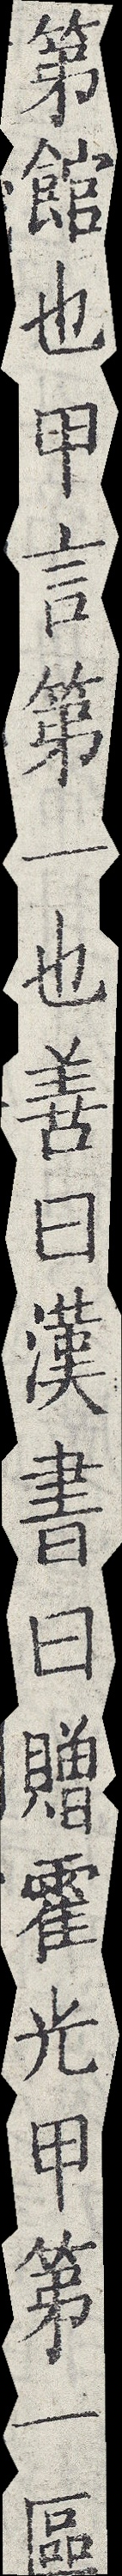第館也甲言第一也善曰漢書曰贈霍光甲第一區
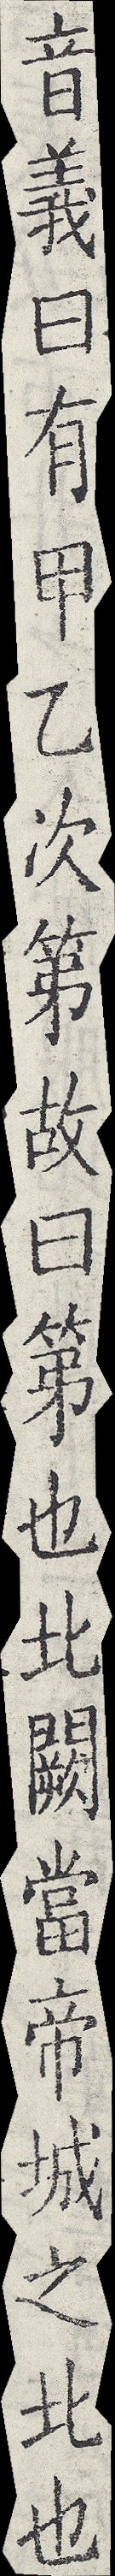音義曰有甲乙次第故曰第也北闕當帝城之北也
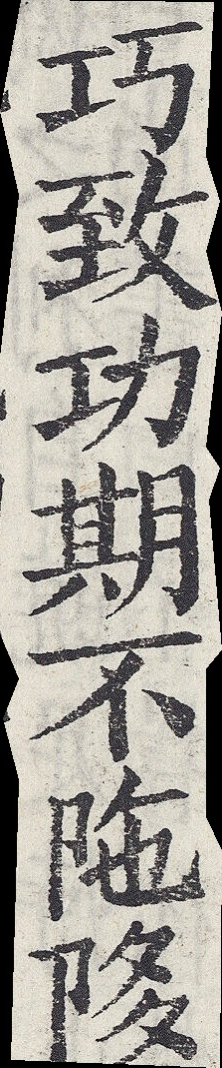巧致功期不陁陊
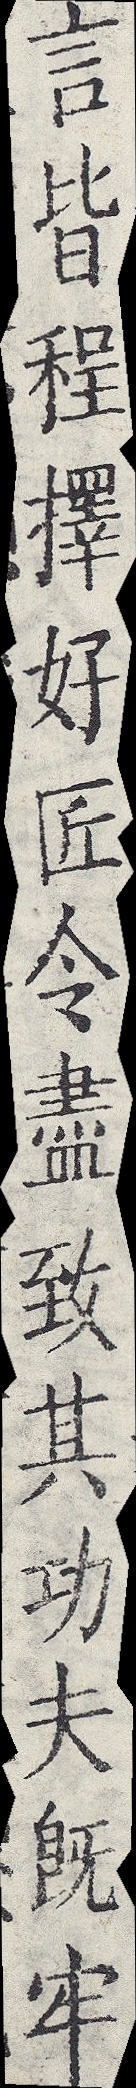言皆程擇好匠令盡致其功夫既牢
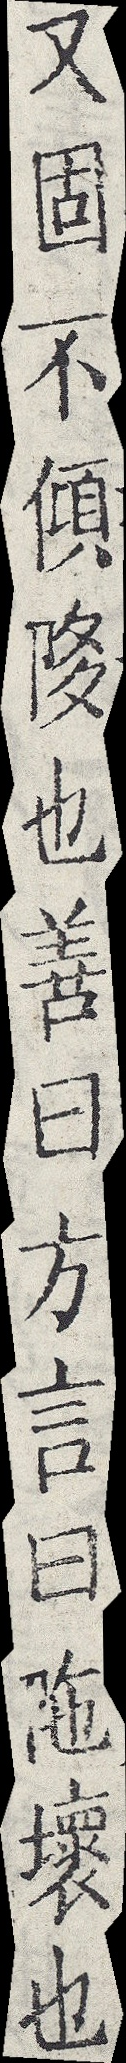又固不傾陊也善曰方言曰陁壞也
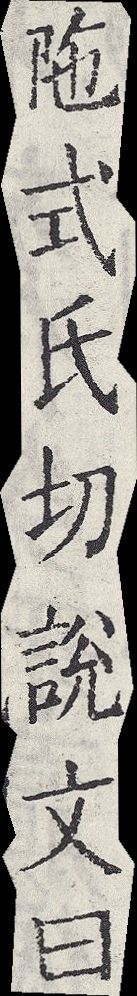陁式氏切說文曰
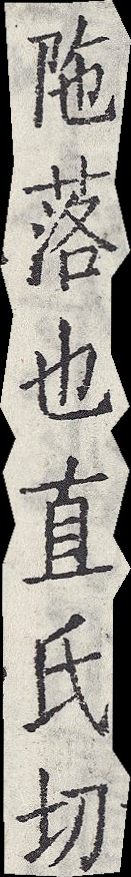陁落也直氏切
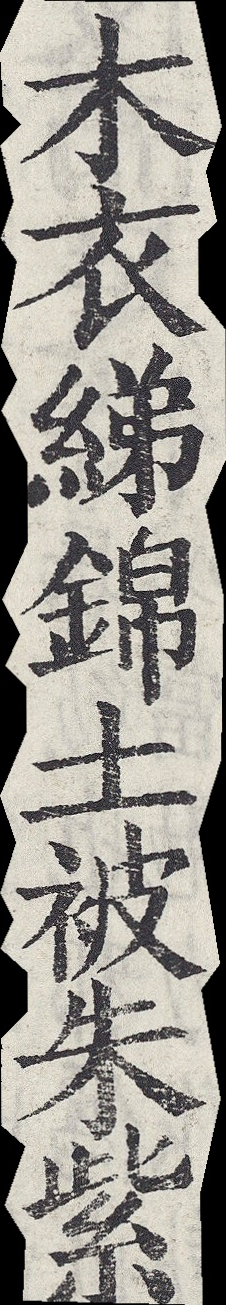木衣綈錦土被朱紫
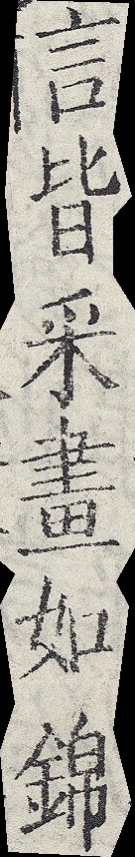言皆采畫如錦
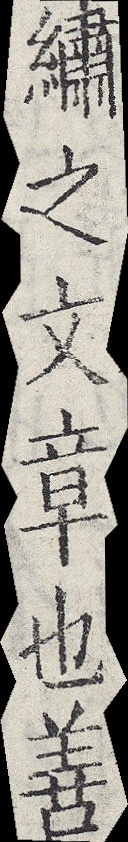繡之文章也善
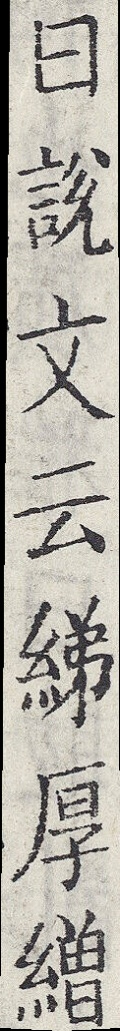曰說文云綈厚繒
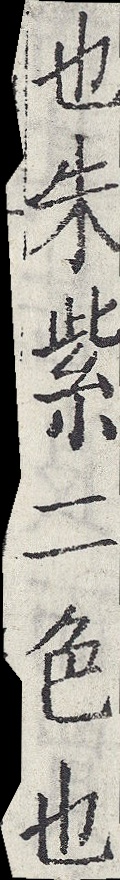也朱紫二色也
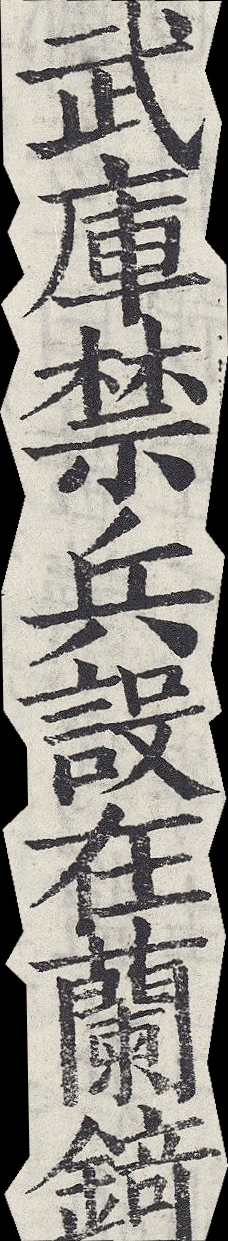武庫禁兵設在蘭錡
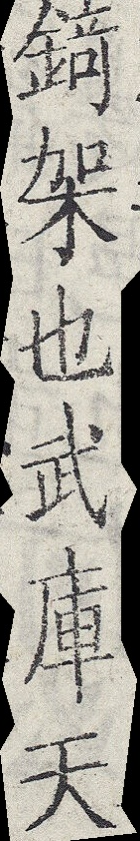錡架也武庫天
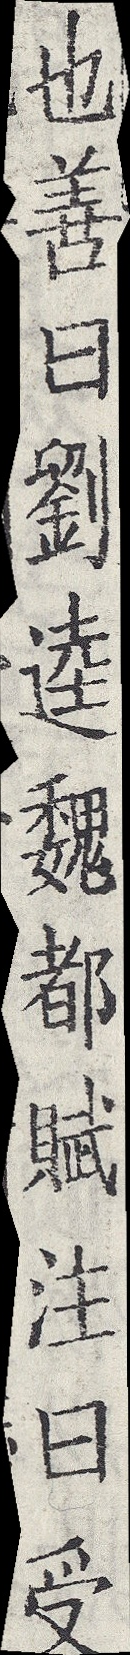也善曰劉逵魏都賦注曰受
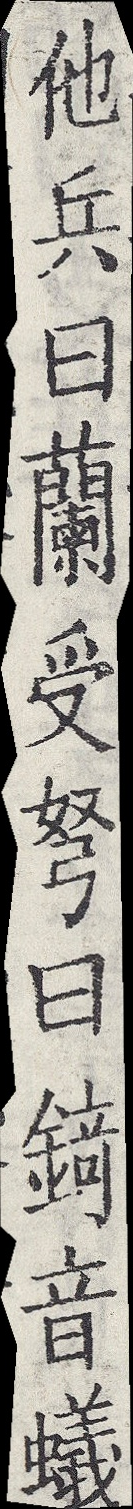他兵曰蘭受弩曰錡音蟻
